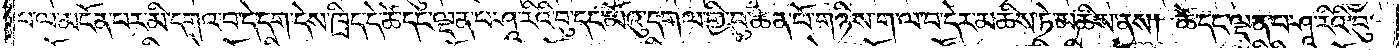པ་ལ་མངོན་པར་མི་དགའ་བ་དེ་དག་དེས་ཁྲིད་དེ་ཚེ་དང་ལྡན་པ་ཤཱ་རིའི་བུ་དང་མོའུ་དགལ་གྱི་བུ་ཆེན་པོ་གཉིས་ག་ལ་བ་དེར་མཆིས་ཏེ་མཆིས་ནས། ཚེ་དང་ལྡན་པ་ཤཱ་རིའི་བུ་
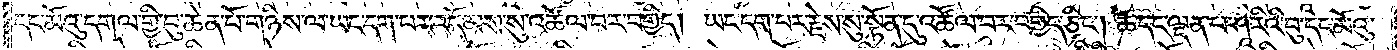དང་མོའུ་དགལ་གྱི་བུ་ཆེན་པོ་གཉིས་ལ་ཡང་དག་པར་འདོམས་སུ་འཚོལ་བར་བགྱིད། ཡང་དག་པར་རྗེས་སུ་སྟོན་དུ་འཚོལ་བར་བགྱིད་ཅིང༌། ཚེ་དང་ལྡན་པ་ཤཱ་རིའི་བུ་དང་མོའུ་
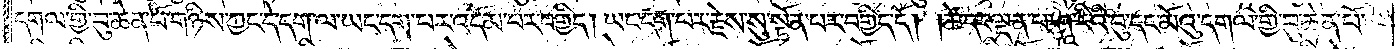དགལ་གྱི་བུ་ཆེན་པོ་གཉིས་ཀྱང་དེ་དག་ལ་ཡང་དག་པར་འདོམ་པར་བགྱིད། ཡང་དག་པར་རྗེས་སུ་སྟོན་པར་བགྱིད་དོ། །ཚེ་དང་ལྡན་པ་ཤཱ་རིའི་བུ་དང་མོའུ་དགལ་གྱི་བུ་ཆེན་པོ་
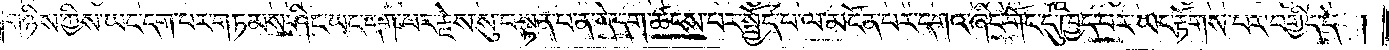གཉིས་ཀྱིས་ཡང་དག་པར་གཏམས་ཤིང་ཡང་དག་པར་རྗེས་སུ་བསྟན་པ་ན་དེ་དག་ཚངས་པར་སྤྱོད་པ་ལ་མངོན་པར་དགའ་ཞིང་གོང་དུ་ཁྱད་པར་ཡང་རྟོགས་པར་བགྱིད་དེ།
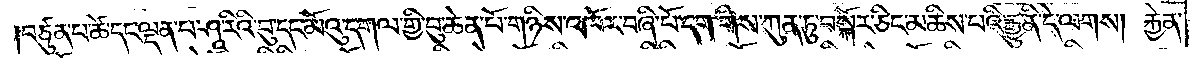བཙུན་པ་ཚེ་དང་ལྡན་པ་ཤཱ་རིའི་བུ་དང་མོའུ་དགལ་གྱི་བུ་ཆེན་པོ་གཉིས་འཁོར་བཞི་པོ་དག་གིས་ཀུན་ཏུ་བསྐོར་ཅིང་མཆིས་པའི་རྒྱུ་ནི་དེ་ལགས། རྐྱེན་
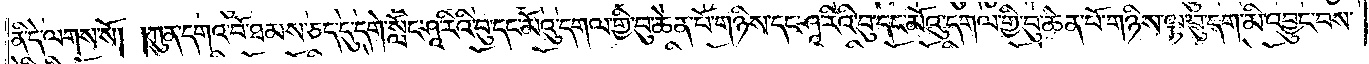ནི་དེ་ལགས་སོ། །ཀུན་དགའ་བོ་ཐམས་ཅད་དུ་དགེ་སློང་ཤཱ་རིའི་བུ་དང་མོའུ་དགལ་གྱི་བུ་ཆེན་པོ་གཉིས་དང་ཤཱ་རིའི་བུ་དང་མོའུ་དགལ་གྱི་བུ་ཆེན་པོ་གཉིས་ལྟ་བུ་དག་མི་འབྱུང་བས་
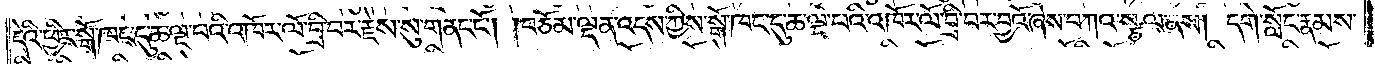དེའི་ཕྱིར་སྒོ་ཁང་དུ་ཆ་ལྔ་པའི་འཁོར་ལོ་བྲི་བར་རྗེས་སུ་གནང་ངོ༌། །བཅོམ་ལྡན་འདས་ཀྱིས་སྒོ་ཁང་དུ་ཆ་ལྔ་པའི་འཁོར་ལོ་བྲི་བར་བྱའོ་ཞེས་བཀའ་སྩལ་ནས། དགེ་སློང་རྣམས་
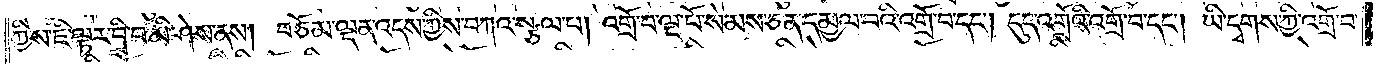ཀྱིས་ཇི་ལྟར་བྲི་བ་མི་ཤེས་ནས། བཅོམ་ལྡན་འདས་ཀྱིས་བཀའ་སྩལ་པ། འགྲོ་བ་ལྔ་པོ་སེམས་ཅན་དམྱལ་བའི་འགྲོ་བ་དང༌། དུད་འགྲོའི་འགྲོ་བ་དང༌། ཡི་དྭགས་ཀྱི་འགྲོ་བ་
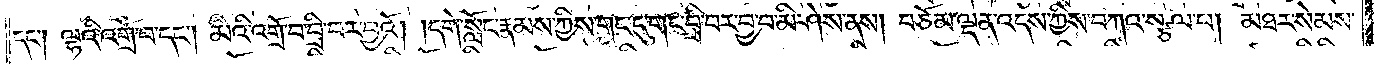དང༌། ལྷའི་འགྲོ་བ་དང༌། མིའི་འགྲོ་བ་བྲི་བར་བྱའོ། །དགེ་སློང་རྣམས་ཀྱིས་གང་དུ་གང་བྲི་བར་བྱ་བ་མི་ཤེས་ནས། བཅོམ་ལྡན་འདས་ཀྱིས་བཀའ་སྩལ་པ། མཐར་སེམས་
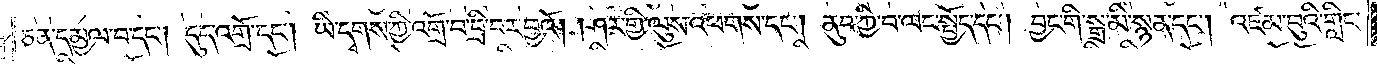ཅན་དམྱལ་བ་དང༌། དུད་འགྲོ་དང༌། ཡི་དྭགས་ཀྱི་འགྲོ་བ་བྲི་བར་བྱའོ། །ཤར་གྱི་ལུས་འཕགས་དང༌། ནུབ་ཀྱི་བ་ལང་སྤྱོད་དང༌། བྱང་གི་སྒྲ་མི་སྙན་དང༌། འཛམ་བུའི་གླིང་
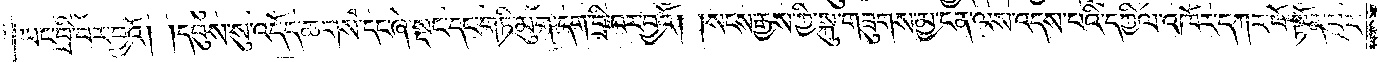ཡང་བྲི་བར་བྱའོ། །དབུས་སུ་འདོད་ཆགས་དང་ཞེ་སྡང་དང་གཏི་མུག་དག་བྲི་བར་བྱའོ། །སངས་རྒྱས་ཀྱི་སྐུ་གཟུགས་མྱ་ངན་ལས་འདས་པའི་དཀྱིལ་འཁོར་དཀར་པོ་སྟོན་པར་
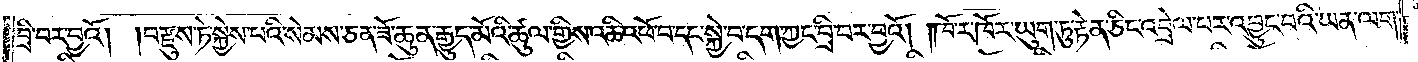བྲི་བར་བྱའོ། །བརྫུས་ཏེ་སྐྱེས་པའི་སེམས་ཅན་ཟོ་ཆུན་རྒྱུད་མོའི་ཚུལ་གྱིས་འཆི་འཕོ་བ་དང་སྐྱེ་བ་དག་ཀྱང་བྲི་བར་བྱའོ། །ཁོ་ར་ཁོར་ཡུག་ཏུ་རྟེན་ཅིང་འབྲེལ་པར་འབྱུང་བའི་ཡན་ལག་
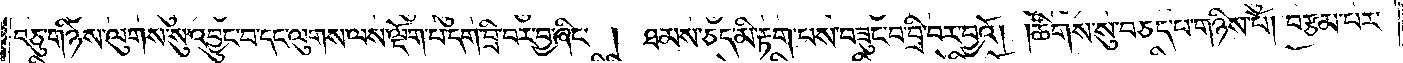བཅུ་གཉིས་ལུགས་སུ་འབྱུང་བ་དང་ལུགས་ལས་ལྡོག་པ་དག་བྲི་བར་བྱ་ཞིང༌། ཐམས་ཅད་མི་རྟག་པས་བཟུང་བ་བྲི་བར་བྱའོ། །ཚིགས་སུ་བཅད་པ་གཉིས་པོ། བརྩམ་པར་
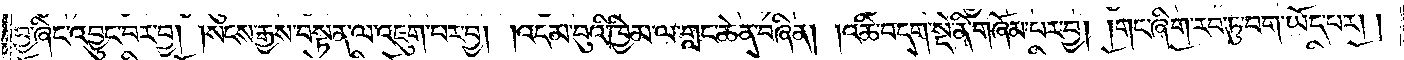བྱ་ཞིང་འབྱུང་བར་བྱ། །སངས་རྒྱས་བསྟན་ལ་འཇུག་པར་བྱ། །འདམ་བུའི་ཁྱིམ་ལ་གླང་ཆེན་བཞིན། །འཆི་བདག་སྡེ་ནི་གཞོམ་པར་བྱ། །གང་ཞིག་རབ་ཏུ་བག་ཡོད་པར། །
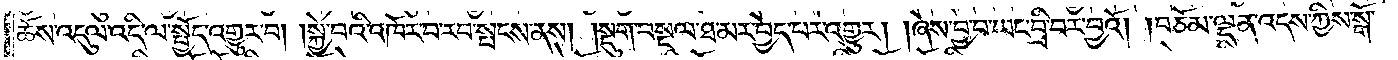ཆོས་འདུལ་འདི་ལ་སྤྱོད་འགྱུར་བ། །སྐྱེ་བའི་འཁོར་བ་རབ་སྤངས་ནས། །སྡུག་བསྔལ་ཐ་མར་བྱེད་པར་འགྱུར། །ཞེས་བྱ་བ་ཡང་བྲི་བར་བྱའོ། །བཅོམ་ལྡན་འདས་ཀྱིས་སྒོ་
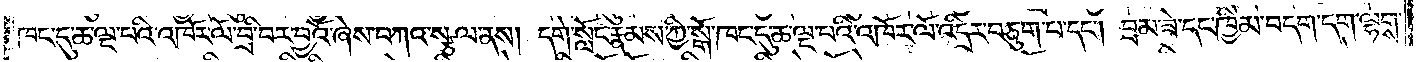ཁང་དུ་ཆ་ལྔ་པའི་འཁོར་ལོ་བྲི་བར་བྱའོ་ཞེས་བཀའ་སྩལ་ནས། དགེ་སློང་རྣམས་ཀྱི་སྒོ་ཁང་དུ་ཆ་ལྔ་པའི་འཁོར་ལོ་འདྲིར་བཅུག་པ་དང༌། བྲམ་ཟེ་དང་ཁྱིམ་བདག་དག་ལྷགས་
